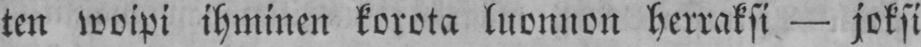ten woipi ihminen korota luonnon herraksi — joksi
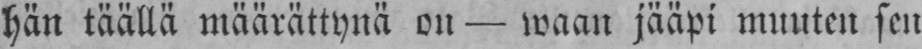hän täällä määrättynä on — waan jääpi muuten sen
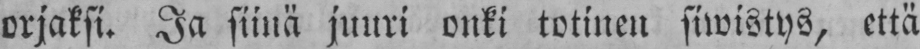orjaksi. Ja siinä juuri onki totinen siwistys, että
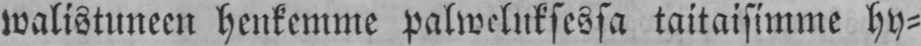walistuneen henkemme palweluksessa taitaisimme hy-
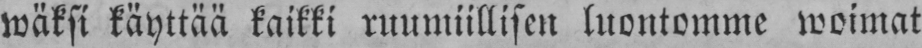wäksi käyttää kaikki ruumiillisen luontomme woimat
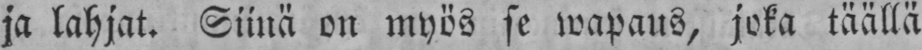ja lahjat. Siinä on myös se wapaus, joka täällä
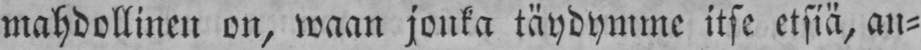mahdollinen on, waan jonka täydymme itse etsiä, an-
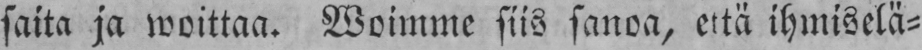saita ja woittaa. Woimme siis sanoa, että ihmiselä-
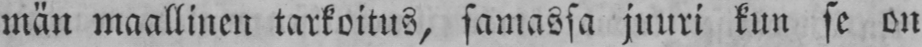män maallinen tarkoitus, samassa juuri kun se on
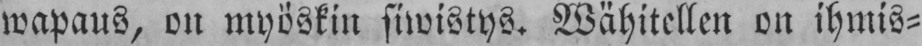wapaus, on myöskin siwistys. Wähitellen on ihmis-
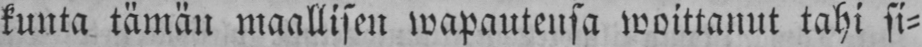kunta tämän maallisen wapautensa woittanut tahi si-
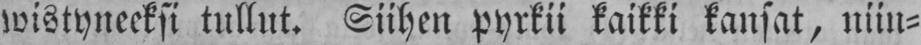wistyneeksi tullut. Siihen pyrkii kaikki kansat, niin-
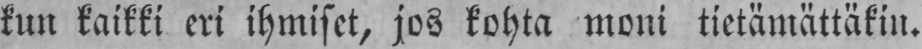kun kaikki eri ihmiset, jos kohta moni tietämättäkin.
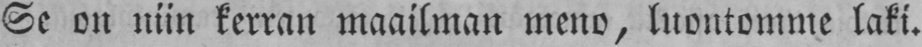Se on niin kerran maailman meno, luontomme laki.
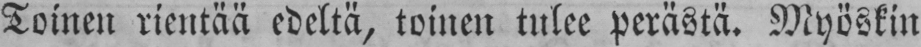Toinen rientää edeltä, toinen tulee perästä. Myöskin
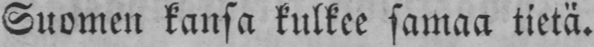Suomen kansa kulkee samaa tietä.
